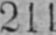2l1
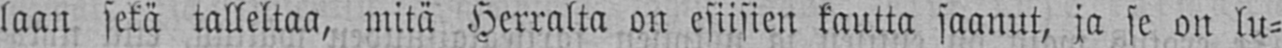laan sekä talleltaa, mitä Herralta on esiisien kautta saanut, ja se on lu-
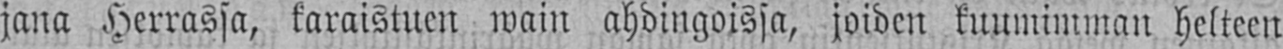jana Herrassa, karaistuen wain ahdingoissa joiden kuumimman helteen
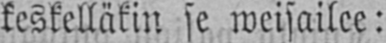keskelläkin se weisailee:
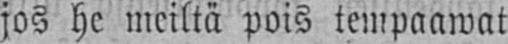jos he meiltä pois tempaawat
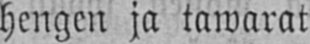hengen ja tawarat
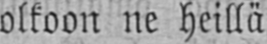olkoon ne heillä
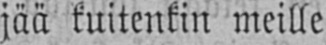jää kuitenkin meille
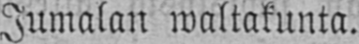Jumalan waltakunta.
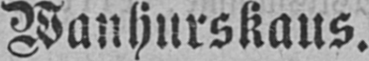Wanhurskaus.
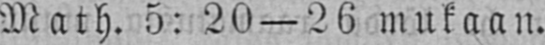Math.5: 20 — 26 mukaan.
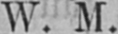W. M.
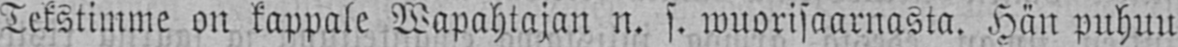Tekstimme on kappale Wapahtajan. n. s. wuorisaarnasta Häh puhuu-
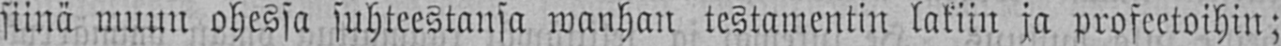siinä muun ohessa suhteestansa wanhan testamentin lakiin ja profeetoihin;
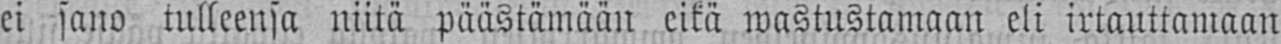ei sano tulleensa nii tä päästämään eikä wastustamaan eli irtauttamaan
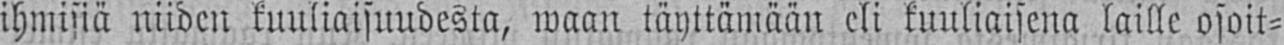ihmisiä niiden kuuliaisuudesta, waan täyttämään eli kuuliaisena laille osoit-
